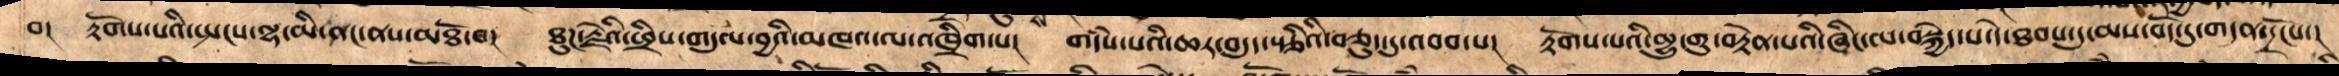བ།   རྟོགས་པའི་སྤངས་ལྷ་མི་ནང་ནས་མཐོ་བ།    ཐུཌ་རྗེའི་ཕྲིས་གདུལ་བྱའི་མཁའ་ལ་འཁྲིག་པ།   གདཾས་པའི་ཆར་བདུད་རྩིའི་བཅུད་དུ་འབབ་པ། རྟོགས་པའི་མྱུ་གུ་བརྟེན་པའི་ཞིང་ལ་བསྐྱེད་པ་དེ་ཐབས་དུ་མས་བོད་དུ་གདན་དྲོངས་།
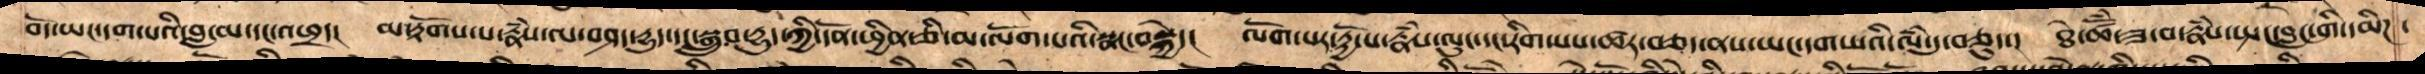བོད་ཡང་དག་པའི་བླ་མ་དང་འཕྲད།   མ་རྟོགས་པ་རྣཾས་ལ་བཤད་རྒྱུད་དང་སྒྲུབ་རྒྱུད་ཀྱི་དོན་ཕྱིན་ཅི་མ་ལོག་པའི་སྣང་བསྐྱེད་།   ལོག་པར་རྟྱོ་པ་རྣཾས་ལུང་དང་རིག་པས་ཚར་བཅད་ནས་ཡང་དག་པའི་ལཾ་དུ་བཅུད་།  ཐེ་ཚོཾ་ཟ་བ་རྣཾས་སྤང་བླང་གི་དམིཌ་
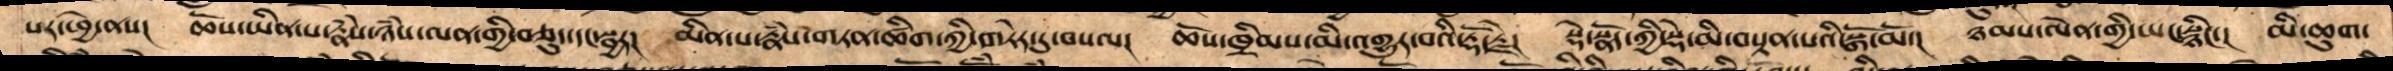པར་ཕྱེ་ནས། ཆོས་ཡིན་པ་རྣཾས་ཉཾས་ལན་གྱི་བཅུད་དང་སྦྱར།  མིན་པ་རྣཾས་གཏན་ཚིག་ཀྱི་གཏེར་དུ་བསལ། ཆོས་ཁྲིམས་མི་འགྱུར་བའི་རྡོ་རྗེ།  སྡེ་སྣོད་ཀྱི་ལྡེ་མི་བསྟན་པའི་སྒོ་མོ་།  ཉམས་ལེན་གྱི་ཡང་སྙིང་། མི་ཆུག་
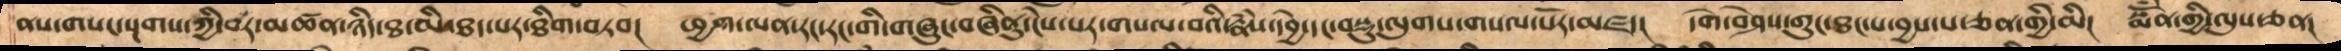ནས་གསང་སྔགས་ཀྱི་བར་མཚན་ཉིད་ཐ་མི་ཐད་པར་ཐིག་བཏབ།  ཕྱག་ལན་རང་རང་གི་གཞུང་བཞིནུ་ངེས་པར་གསལ་བའི་རྣྃས་དབྱེ་དང་བསྡུ་ལུགས་གསལ་པོར་མཛད། དགེ་བཤེས་གུང་ཐང་པ་བྱས་པ་ཅན་གྱི་མི། སྨོྃན་གྱི་ལུས་ཅན།
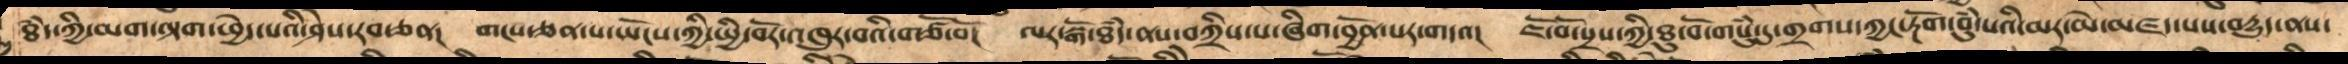ཐཾད་ཀྱི་མག་ལྟག་ཕྱེད་པའི་ཤེས་རབ་ཅན། གངས་ཅན་པ་ཡོངས་ཀྱི་སྤྱི་བོར་འཁུར་བའི་གཙོ་བོ།  ལར་སྒོ་ཐྃད་ནས་བཀྲིས་པ་ཞིག་བྱོན་པར་གདའ། ཇོ་བོ་སྲས་ཀྱི་ཐུབ་བོ་གསུྃ་དུ་གྲགས་ཀྱང་རྔོག་བུྃ་པའི་མར་མེ་མཛད་པས་བདྱུད་ནས་
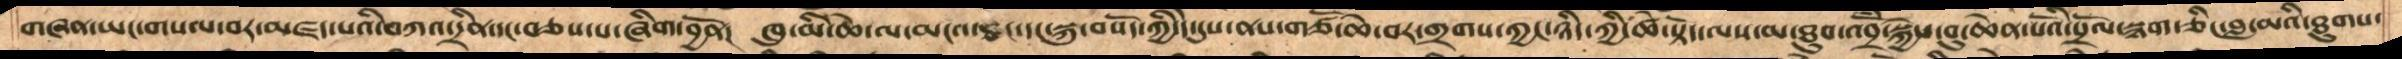གཞན་ཡང་གསལ་བར་མཛད་པའི་བཀའ་དྲིན་དང་བཅས་པ་ཞིག་བྱོན།   ཁུ་མི་ཆེ་ལ་མངའ་ཐང་སྐུ་བསོད་ཀྱི་དེ་དུས་ནས་གཙོ་ཆེ་བར་གྲགས་ཀྱང་ཉིད་ཀྱི་ཚེ་སྟོད་ལས་མ་ཐུབ་འབྲོཾ་སྐྱེས་བུ་ཆེན་པོའི་སྲོལ་སྙག་ཤིང་བླ་མའི་ཐུགས་
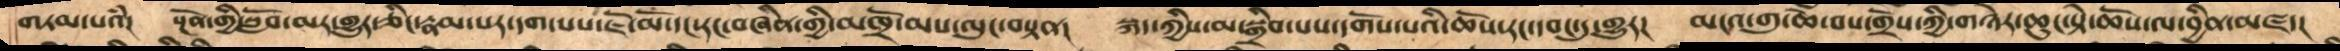གཏམ་པའཾ།   སྔོན་གྱི་སློབ་མར་གྱུར་ཅིང་རྣམ་པར་དག་པས་ཇོ་མོ་དང་རང་བཞིན་གྱི་མཁྲོ་མས་ལུང་བསྟན།  སྐད་ཀྱིས་མ་སྒྲིབ་པས་དགོས་པའི་ཆོས་རང་དབང་དུ་གྱུར།   མངའ་གུ་ཆེ་བས་གྲོས་ཀྱི་གཉེར་ཆུང་སྟེ་ཆོས་ལ་བྱིན་མཛད།
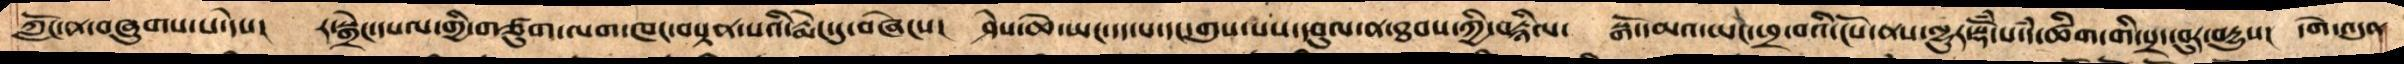ཀློང་ན་བཞུགས་པ་དེས།  ར་སྒྲེང་དཔལ་གྱི་གཙུག་ལག་ཁང་བསྟན་པའི་རྨེང་དུ་བཞེངས།   ཤེས་ཆེ་ཡང་དད་པ་དང་གུས་པས་དབུལ་ན་ཐབས་ཀྱི་བརྙིལ། སྒོ་དམའ་ཡང་ཕྲ་བའི་ངོས་ནས་ལྷུར་སྡོཾ་པ་དཾ་ཚིག་གི་སྲད་བུར་བདྱུས། དགེ་འདུན་
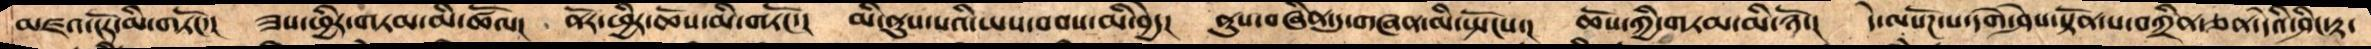མཛའ་ངོར་མི་གཏོང་།  ཟས་ཕྱིར་གཏམ་མི་ཚོལ།  ནོར་ཕྱིར་ཆོས་མི་གཏོང་།  མི་ནུས་པའི་ཡས་བབས་མི་བྱེད། ནུས་བཞིན་དུ་གཞན་མི་སྤོངས་། ཆོས་ཀྱི་གཏམ་མི་ཉོ།   དེ་ལསོཌ་པ་དགེ་ཤེས་སྟོན་པ་བཀྲིན་ཅན་དེའི་ཤིང་རྟ་
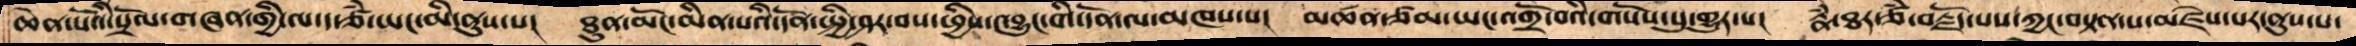ཆེན་པོའི་སྲོལ་གཞན་གྱི་ལ་ད་ཙཾ་ཡང་མི་ནུས་པ།  ཐུན་མོང་མིན་པའི་དོན་སྤྱི་ཤར་བས་ཕྱིས་འབྱུང་གི་དོན་ལ་མཁས་པ།  མཚན་ཙམ་ཡང་འགྲོ་བའི་གསོས་སུ་གྱུར་པ།   རྣཾ་ཐར་ཙཾ་བརྗོད་པས་ཀྱང་བསྟན་པ་མཛེས་པར་ནུས་པ་
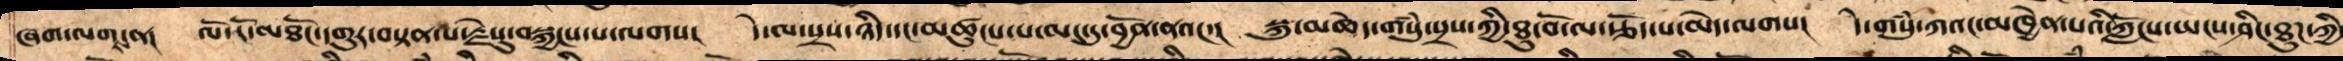ཞག་ལགས་ན།   ལོ་ངོ་མཐོང་དགུར་བསྟན་པ་རྗེསུ་བསྐྱངས་པ་ལགས།   དེ་ལ་སྲས་ཉིད་དང་མཚུངས་པ་མང་དུ་བྱོན་ནའང་།   སྐུ་མཆེད་གསུཾ་སྲས་ཀྱི་ཐུ་བོ་ལ་རྩོད་པ་མེད་པ་ལགས།  དེ་གསུཾ་ཀའང་མཁྱེན་པའི་ཀློང་ཡངས་ཤིང་ཐུཌ་ཀྱི
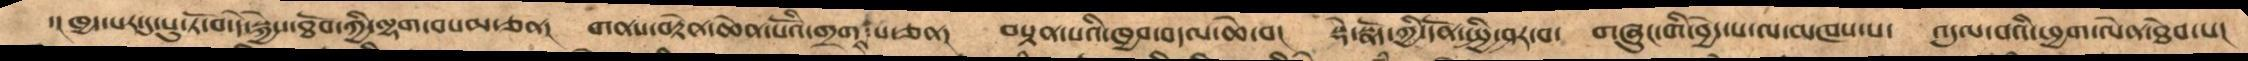་།  ཁྱད་པར་དུ་པུ་ཏོ་བ་དེ་སྐྱེས་ཐོབ་ཀྱི་ལྷག་བསམ་ཅན། གནས་བརྟེན་ཆེན་པོའི་གྲགས་པ་ཅན། བསྟན་པའི་ཁྱབ་བདལ་ཆེ་བ། སྡེ་སྣོད་ཀྱི་དོན་སྤྱི་ཤར་བ།  གཞུང་གི་བྱེད་པ་ལ་མཁས་པ།   འདུལ་བའི་ཕྱག་ལེན་ཐེབ་པ།
